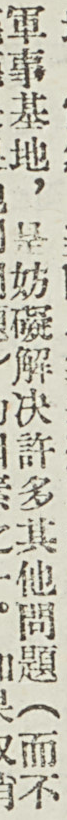軍事基地，是妨礙解決許多其他問題（而不
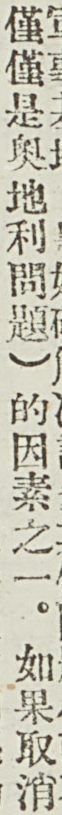僅僅是奧地利問題）的因素之一。如果取消
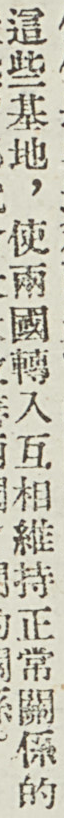這些基地，使兩國轉入互相維持正常關係的
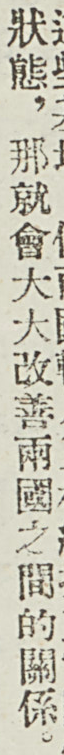狀態，那就會大大改善兩國之間的關係。
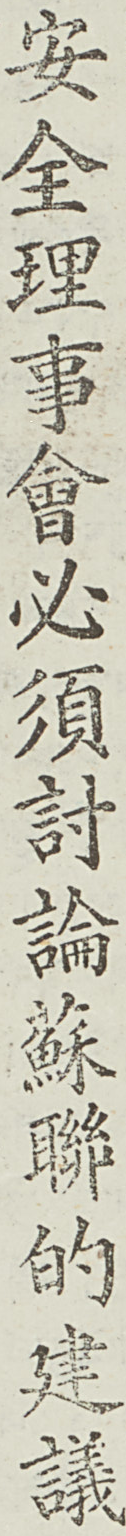安全理事會必須討論蘇聯的建議
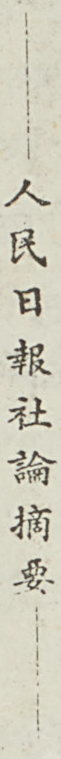——人民日報社論摘要——
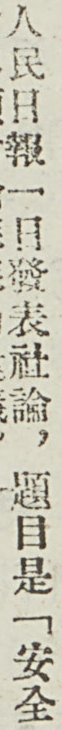人民日報一日發表社論，題目是「安全
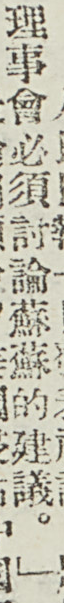理事會必須討論蘇聯的建議。」
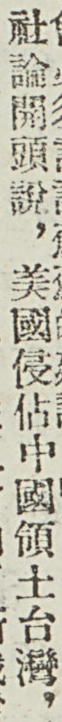社論開頭說，美國侵佔中國領土台灣，
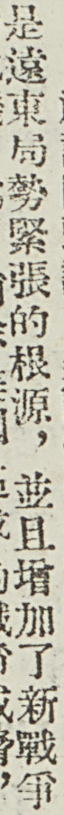是遠東局勢緊張的根源，並且增加了新戰爭
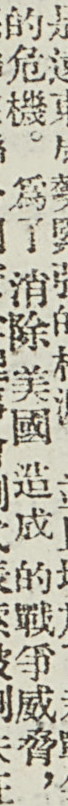的危機。爲了消除美國造成的戰爭威脅，
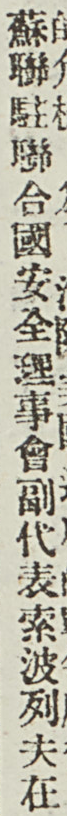蘇聯駐聯合國安全理事會副代表索波列夫在
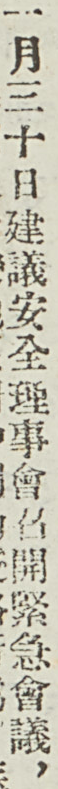一月三十日建議安全理事會召開緊急會議，
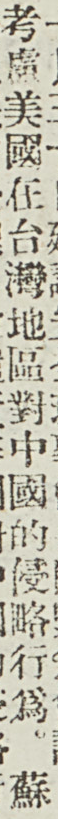考慮美國在台灣地區對中國的侵略行爲。蘇
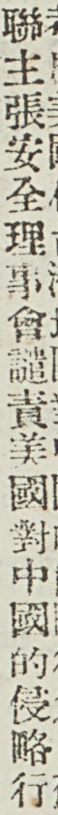聯主張安全理事會譴責美國對中國的侵略行
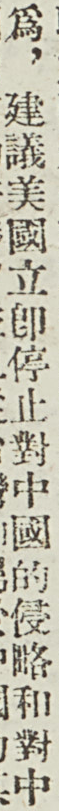爲，建議美國立卽停止對中國的侵略和對中
